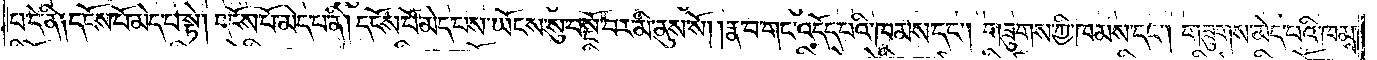པ་དེ་ནི༑ དངོས་པོ་མེད་པ་སྟེ། དངོས་པོ་མེད་པ་ནི། དངོས་པོ་མེད་པས་ཡོངས་སུ་བསྔོ་བར་མི་ནུས་སོ། །རྣ་བ་གང་འདོད་པའི་ཁམས་དང༌། གཟུགས་ཀྱི་ཁམས་དང༌། གཟུགས་མེད་པའི་ཁམས་
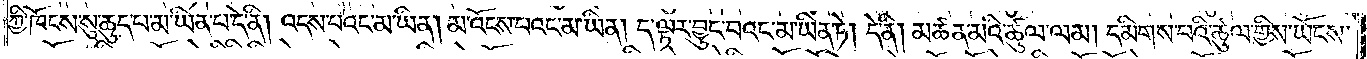ཀྱི་ཁོངས་སུ་ཆུད་པ་མ་ཡིན་པ་དེ་ནི། འདས་པའང་མ་ཡིན། མ་འོངས་པའང་མ་ཡིན། ད་ལྟར་བྱུང་བའང་མ་ཡིན་ཏེ། དེ་ནི། མཚན་མའི་ཚུལ་ལམ། དམིགས་པའི་ཚུལ་གྱིས་ཡོངས་
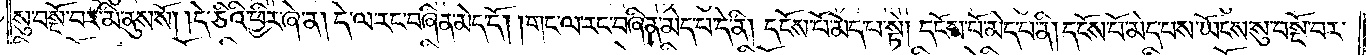སུ་བསྔོ་བར་མི་ནུས་སོ། །དེ་ཅིའི་ཕྱིར་ཞེ་ན། དེ་ལ་རང་བཞིན་མེད་དོ། །གང་ལ་རང་བཞིན་མེད་པ་དེ་ནི། དངོས་པོ་མེད་པ་སྟེ། དངོས་པོ་མེད་པ་ནི། དངོས་པོ་མེད་པས་ཡོངས་སུ་བསྔོ་བར་
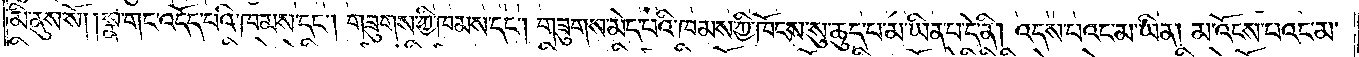མི་ནུས་སོ། །སྣ་གང་འདོད་པའི་ཁམས་དང༌། གཟུགས་ཀྱི་ཁམས་དང༌། གཟུགས་མེད་པའི་ཁམས་ཀྱི་ཁོངས་སུ་ཆུད་པ་མ་ཡིན་པ་དེ་ནི། འདས་པའང་མ་ཡིན། མ་འོངས་པའང་མ་
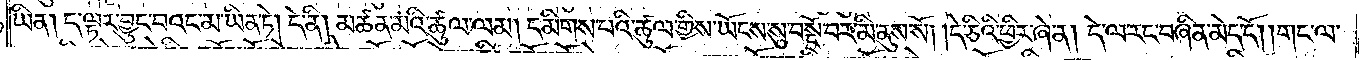ཡིན། ད་ལྟར་བྱུང་བའང་མ་ཡིན་ཏེ། དེ་ནི། མཚན་མའི་ཚུལ་ལམ། དམིགས་པའི་ཚུལ་གྱིས་ཡོངས་སུ་བསྔོ་བར་མི་ནུས་སོ། །དེ་ཅིའི་ཕྱིར་ཞེ་ན། དེ་ལ་རང་བཞིན་མེད་དོ། །གང་ལ་
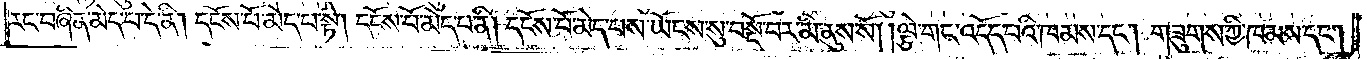རང་བཞིན་མེད་པ་དེ་ནི། དངོས་པོ་མེད་པ་སྟེ། དངོས་པོ་མེད་པ་ནི། དངོས་པོ་མེད་པས་ཡོངས་སུ་བསྔོ་བར་མི་ནུས་སོ། །ལྕེ་གང་འདོད་པའི་ཁམས་དང༌། གཟུགས་ཀྱི་ཁམས་དང༌།
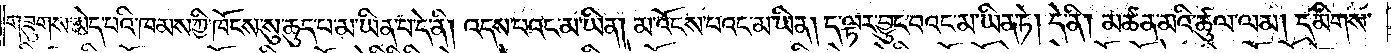གཟུགས་མེད་པའི་ཁམས་ཀྱི་ཁོངས་སུ་ཆུད་པ་མ་ཡིན་པ་དེ་ནི། འདས་པའང་མ་ཡིན། མ་འོངས་པའང་མ་ཡིན། ད་ལྟར་བྱུང་བའང་མ་ཡིན་ཏེ། དེ་ནི། མཚན་མའི་ཚུལ་ལམ། དམིགས་
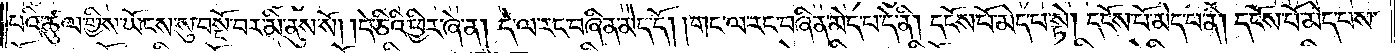པའི་ཚུལ་གྱིས་ཡོངས་སུ་བསྔོ་བར་མི་ནུས་སོ། །དེ་ཅིའི་ཕྱིར་ཞེ་ན། དེ་ལ་རང་བཞིན་མེད་དོ། །གང་ལ་རང་བཞིན་མེད་པ་དེ་ནི། དངོས་པོ་མེད་པ་སྟེ། དངོས་པོ་མེད་པ་ནི། དངོས་པོ་མེད་པས་
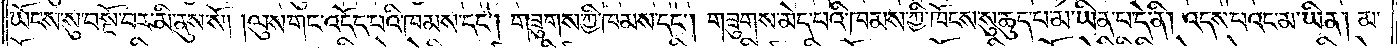ཡོངས་སུ་བསྔོ་བར་མི་ནུས་སོ། །ལུས་གང་འདོད་པའི་ཁམས་དང༌། གཟུགས་ཀྱི་ཁམས་དང༌། གཟུགས་མེད་པའི་ཁམས་ཀྱི་ཁོངས་སུ་ཆུད་པ་མ་ཡིན་པ་དེ་ནི། འདས་པའང་མ་ཡིན། མ་
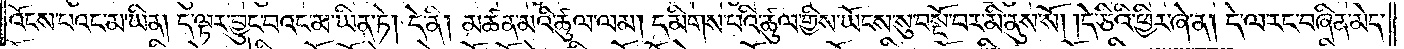འོངས་པའང་མ་ཡིན། ད་ལྟར་བྱུང་བའང་མ་ཡིན་ཏེ། དེ་ནི། མཚན་མའི་ཚུལ་ལམ། དམིགས་པའི་ཚུལ་གྱིས་ཡོངས་སུ་བསྔོ་བར་མི་ནུས་སོ། །དེ་ཅིའི་ཕྱིར་ཞེ་ན། དེ་ལ་རང་བཞིན་མེད་
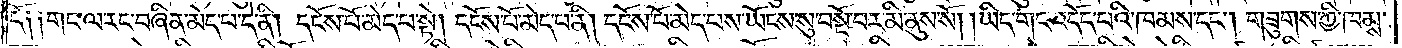དོ༑ ༑གང་ལ་རང་བཞིན་མེད་པ་དེ་ནི། དངོས་པོ་མེད་པ་སྟེ། དངོས་པོ་མེད་པ་ནི། དངོས་པོ་མེད་པས་ཡོངས་སུ་བསྔོ་བར་མི་ནུས་སོ། །ཡིད་གང་འདོད་པའི་ཁམས་དང༌། གཟུགས་ཀྱི་ཁམས་
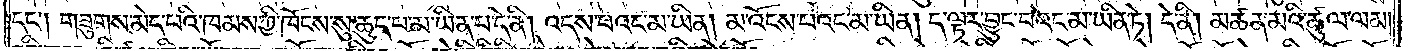དང༌། གཟུགས་མེད་པའི་ཁམས་ཀྱི་ཁོངས་སུ་ཆུད་པ་མ་ཡིན་པ་དེ་ནི། འདས་པའང་པ་ཡིན། མ་འོངས་པའང་མ་ཡིན། ད་ལྟར་བྱུང་བའང་མ་ཡིན་ཏེ། དེ་ནི། མཚན་མའི་ཚུལ་ལམ།
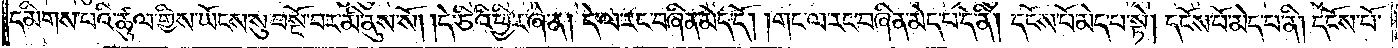དམིགས་པའི་ཚུལ་གྱིས་ཡོངས་སུ་བསྔོ་བར་མི་ནུས་སོ། །དེ་ཅིའི་ཕྱིར་ཞེ་ན། དེ་ལ་རང་བཞིན་མེད་དོ། །གང་ལ་རང་བཞིན་མེད་པ་དེ་ནི། དངོས་པོ་མེད་པ་སྟེ། དངོས་པོ་མེད་པ་ནི། དངོས་པོ་
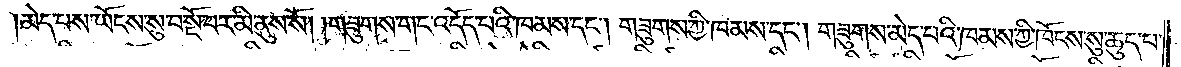མེད་པས་ཡོངས་སུ་བསྔོ་བར་མི་ནུས་སོ། །གཟུགས་གང་འདོད་པའི་ཁམས་དང༌། གཟུགས་ཀྱི་ཁམས་དང༌། གཟུགས་མེད་པའི་ཁམས་ཀྱི་ཁོངས་སུ་ཆུད་པ་
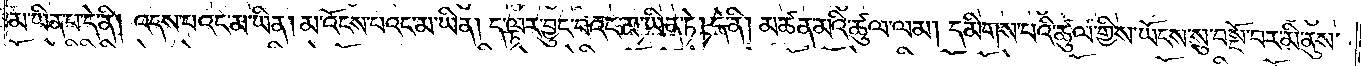མ་ཡིན་པ་དེ་ནི། འདས་པའང་མ་ཡིན། མ་འོངས་པའང་མ་ཡིན། ད་ལྟར་བྱུང་བའང་མ་ཡིན་ཏེ། དེ་ནི། མཚན་མའི་ཚུལ་ལམ། དམིགས་པའི་ཚུལ་གྱིས་ཡོངས་སུ་བསྔོ་བར་མི་ནུས་
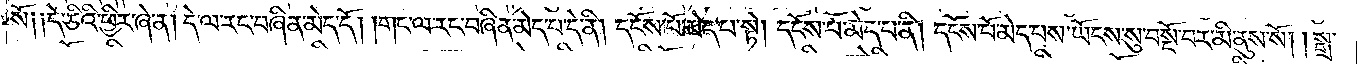སོ༑ ༑དེ་ཅིའི་ཕྱིར་ཞེ་ན། དེ་ལ་རང་བཞིན་མེད་དོ། །གང་ལ་རང་བཞིན་མེད་པ་དེ་ནི། དངོས་པོ་མེད་པ་སྟེ། དངོས་པོ་མེད་པ་ནི། དངོས་པོ་མེད་པས་ཡོངས་སུ་བསྔོ་བར་མི་ནུས་སོ། །སྒྲ་
